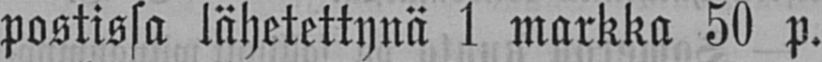postissa lähetettynä 1 markka 50 p.
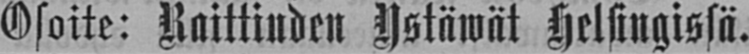Osoite: Raittiuden Ystäwät Helsingissä.
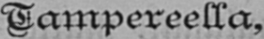Tampereella,
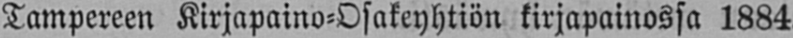Tampereen Kirjapaino-Osakeyhtiön kirjapainossa 1884.
